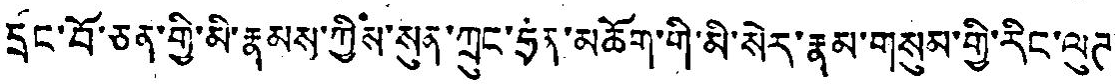དྲང་བོ་ཅན་གྱི་མི་རྣམས་ཀྱིས་སུན་ཀྲུང་ཧྲན་མཆོག་གི་མི་སེར་རྣམ་གསུམ་གྱི་རིང་ལུཊ་
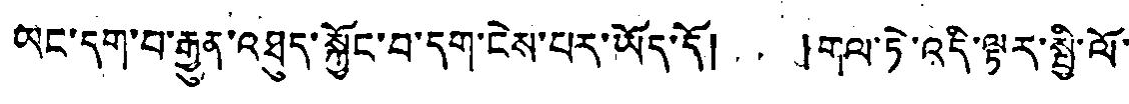ཡང་དག་བ་རྒྱུན་འཐུད་སྐྱོང་བ་དག་ངེས་པར་ཡོད་དོ། །གལ་ཏེ་འདི་ལྟར་སྤྱི་ལོ་
